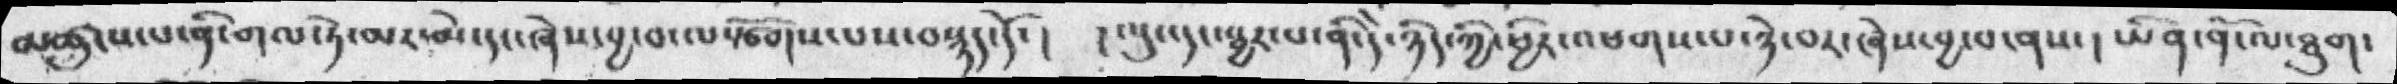མཚུངས་པ་ནི་གལ་ཏེ་མར་མེ་དང་ཞེས་བྱ་བ་ལསྩོགས་པས་བསྙད་དོ་ །    །ལུང་དང་སྦྱར་པ་ནི་དེ་ཉིད་ཀྱི་ཕྱིར་འཕགས་པ་ཉེ་བར་ཞེས་བྱ་པ་ནས་  །ཡིན་ནོ་ལ་ཐུག་
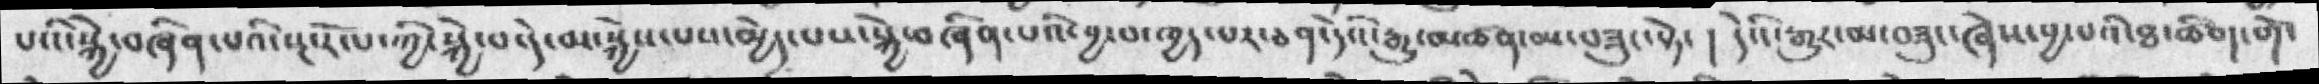པའི་སྐྱེ་བཞིན་པའི་སྔ་རོལ་ཀྱི་སྐྱེ་བ་དེ་མ་སྐྱེས་པས་མྱེད་པས་སྐྱེ་བཞིན་པའི་བྱ་བ་ཁྱད་པར་ཅན་དེའི་རྒྱུ་མཚན་མ་བཟུང་སྟེ་ ། དེའི་རྒྱུར་མ་བཟུང་ཞེས་བྱ་པའི་ཐ་ཚིག་གོ་
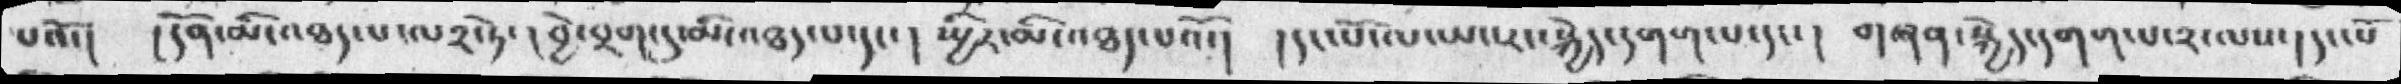པའོ་།  །དོན་མི་འཐད་པ་ལ༢་ཏེ་  །བྱེ་བྲག་དུ་མི་འཐད་པ་དང་།  སྤྱིར་མི་འཐད་པའོ་།   །དང་པོ་ལ་ཡང་རང་སྐྱེད་དགག་པ་དང་།  གཞན་སྐྱེད་དགག་པ་༢་ལས་། དང་པོ་
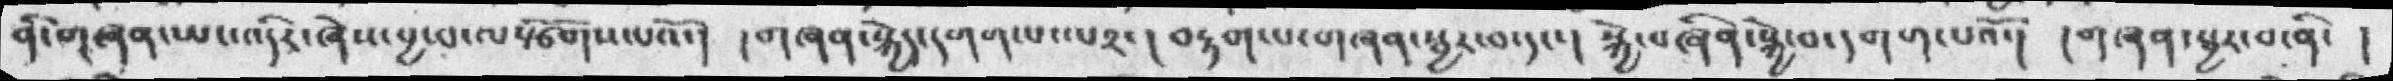ནི་གཞན་ཡང་འདིར་ཞེས་བྱ་བ་ལསྩོགས་པའོ་།  ། གཞན་སྐྱེད་དགག་པ་ལ༢་ ། བརྟག་པ་གཞན་སྦྱར་བ་དང་།  སྐྱེ་བཞིན་སྐྱེ་བ་དགག་པའོ་།  །གཞན་སྦྱར་བ་ནི་ །
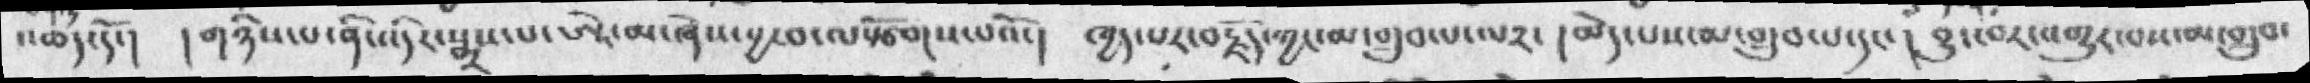འཆད་དོ་།  །གཉིས་པ་ནི་འདིར་སྨྲས་པ་ཨྷེ་མ་ཞེས་བྱ་བ་ལསྩོགས་པའོ་།   ཁྱད་པར་བརྗོད་ཀྱང་མ་གྲུབ་པ་ལ༢་  །མེད་པས་མ་གྲུན་པ་དང་ ། བྱུང་བར་འགྱུར་བས་མ་གྲུབ་
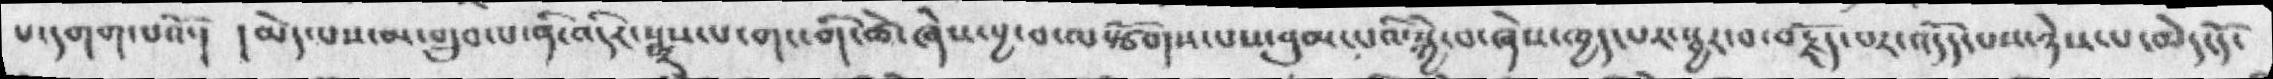པ་དགག་པའོ་།    །མེད་པས་མ་གྲུབ་པ་ནི་འདིར་སྨྲས་པ་གང་གི་ཚེ་ཞེས་བྱ་ལསྩོགས་པས་བུམ་པའི་སྐྱེ་བ་ཞེས་ཁྱད་པར་སྦྱར་བ་བརྗོད་པར་འདོད་པས་ཉེས་པ་མེད་དོ་
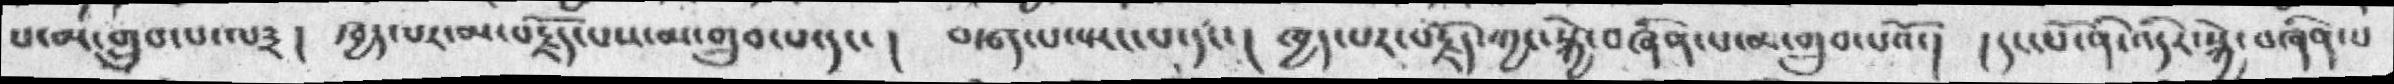པ་མ་གྲུབ་པ་ལ༣ ། ཁྱད་པར་མ་བརྗོད་པས་མ་གྲུབ་པ་དང་  །  བརྩད་པ་སྤང་པ་དང་།    ཁྱད་པར་བརྗོད་ཀྱང་སྐྱེ་བཞིན་པ་མ་གྲུབ་པའོ་།   །དང་པོ་ནི་འདིར་སྐྱེ་བཞིན་པ་
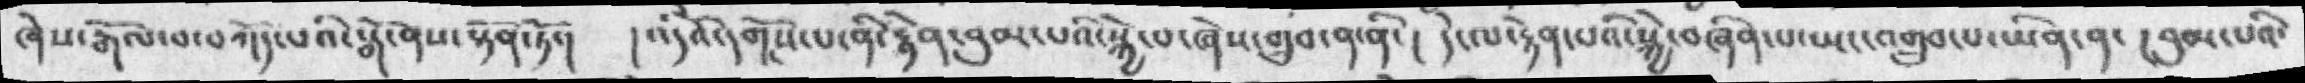ཞེས་རྒོལ་བ་བཀོད་པའི་སྒོ་ནས་སྟོན་ཏོ་།   ། འདིའི་དགོས་པ་ནི་རྟེན་བུམ་པའི་སྐྱེ་པ་ཞེས་གྲུབ་ན་ནི་།  དེ་ལ་རྟེན་པའི་སྐྱེ་བཞིན་པ་ཡང་འགྲུབ་པ་ཡིན་ན་  ། བུམ་པའི་
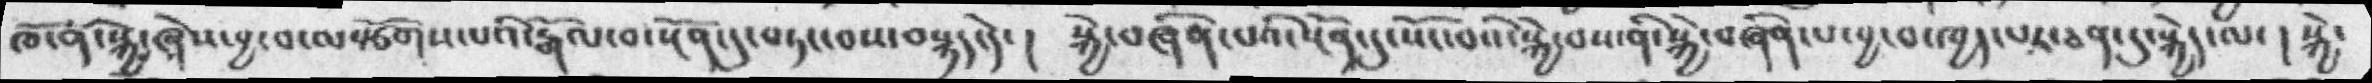ཁོ་ན་སྐྱེ་ཞེས་བྱ་བ་ལསྩོགས་པའི་རྒོལ་བ་སྔོན་དུ་བཏང་བས་བསྙད་དེ་ ། སྐྱེ་བཞིན་པའི་དོན་དུ་སོང་བའི་སྐྱེ་བས་སྐྱེ་བས་ནི་སྐྱེ་བཞིན་པ་བྱ་བ་ཁྱད་པར་ཅན་དུ་སྐྱེད་ལ་  ། སྐྱེ་
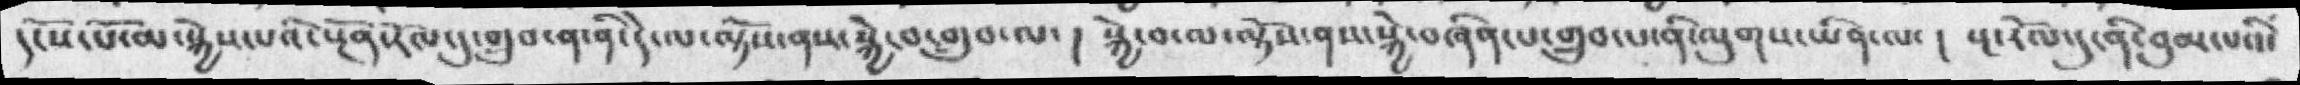དངོས་པོ་མ་སྐྱེས་པའི་སྔོན་རོལ་དུ་གྲུབ་ན་ནི་དེ་ལ་ལྟོས་ནས་སྐྱེ་བ་གྲུབ་ལ་ །  སྐྱེ་བ་ལ་ལྟོས་ནས་སྐྱེ་བཞིན་པ་གྲུབ་པ་ནི་ལུགས་ཡིན་ལ་ ། སྔ་རོལ་དུ་ནི་བུམ་པའི་
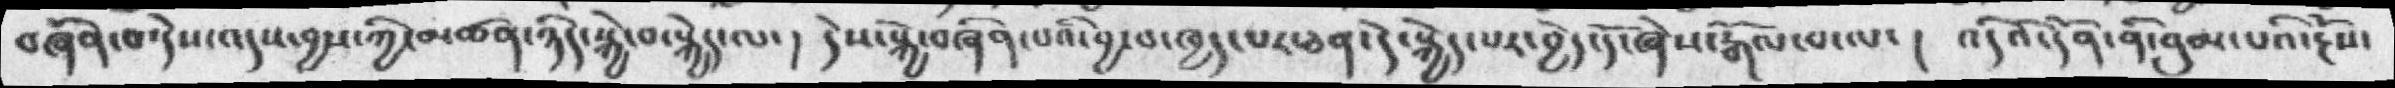བཞིན་བ་དེས་འདས་བྱས་ཀྱི་མཚན་ཉིད་སྐྱེ་བ་སྐྱེད་ལ་ ། དེས་སྐྱེ་བཞིན་པའི་བྱ་བ་ཁྱད་པར་ཅན་དེ་སྐྱེད་པར་བྱེད་དོ་ཞེས་རྒོལ་བ་ལ་  །  འདིའི་དོན་ནི་བུམ་པའི་རྔོས་
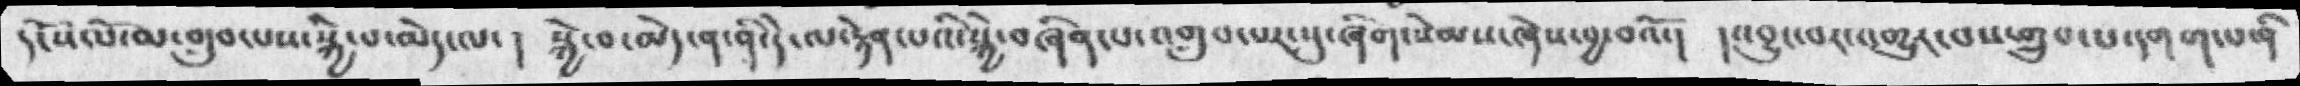དངོས་པོ་མ་གྲུབ་པས་སྐྱེ་པ་མེད་ལ་   །  སྐྱེ་བ་མེད་ན་ནི་དེ་ལ་རྟེན་པའི་སྐྱེ་བཞིན་པ་འགྲུབ་པར་སུ་ཞིག་སེམས་ཞེས་བྱ་བའོ་།    །འབྱུང་བར་འགྱུར་བས་གྲུབ་པ་དགག་པ་ནི་
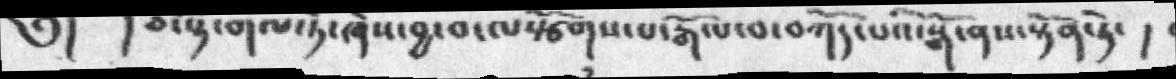༅།    ། ཅ་སྟ་གལ་ཏེ་ཞེསབྱ་བ་ལསྩོགས་པ་རྒོལ་བ་བཀོད་པའི་སྒོས་ནས་སྟོན་ཏེ་ །
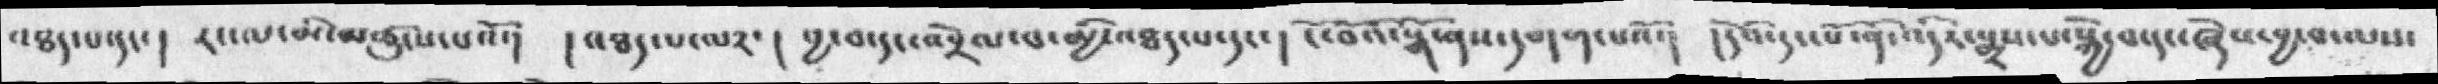འཐད་པ་དང་།  རང་ལ་མི་མཚུངས་པའོ་།  །འཐད་པ་ལ༢་།  བྱ་བ་དང་འབྲེལ་པ་མྱི་འཐད་པ་དང་།  ངོ་བོའི་སྒོ་ནས་དགག་པའོ་།  །དེའི་དང་པོ་ནི་འདིར་སྨྲས་པ་སྐྱེ་བ་དང་ཞེས་བྱ་བ་ལས་
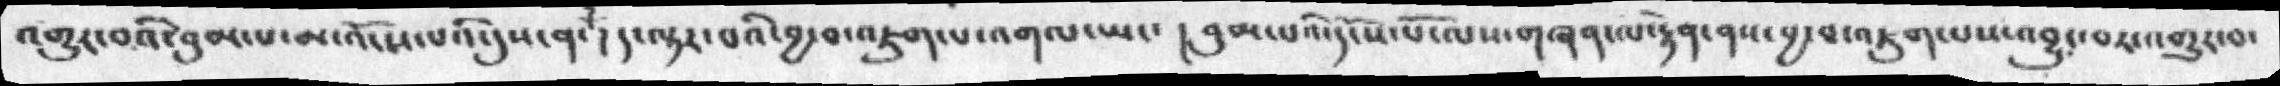འགྱུར་བའི་བུམ་པ་མ་འོངས་པའི་དུས་ན་། ད་ལྟར་བའི་བྱ་བ་འཇུག་པ་འགལ་ཡང་།  བུམ་པའི་དངོས་པོ་ལས་གཞན་ལ་རྟེན་ནས་བྱ་བ་འཇུག་པས་འབྱུང་བར་འགྱུར་བ་
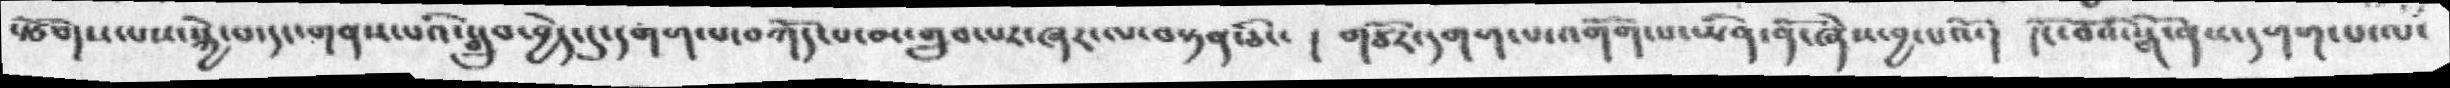སྩོགས་པས་སྐྱེ་བ་དང་གནས་པའི་སྒྲུབ་བྱེད་དུ་དགག་པ་བཀོད་པ་མ་གྲུབ་པར་ཞར་ལ་བསྟན་ཅིང་།  གཙོར་དགག་པ་འགོག་པ་ཡིན་ནོ་ཞེས་བྱ་བའོ་།  །ངོ་བོའི་སྒོ་ནས་དགག་པ་ལ་
